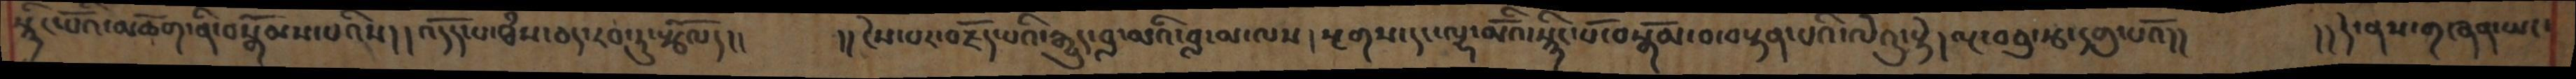སྙིང་པོའ་མཆོག་ནི་བསྒོམས་པའིས།།འདོད་པ་ཐཾས་ཅད་རབ་ཏུ་སྩོལ།།    །།ངེས་པར་བརྗོད་པའི་རྒྱུད་བླ་མའི་བླ་མ་ལས། སྔགས་དང་ལྷ་མོའི་སྙིང་པོ་བསྒོམ་བ་བསྟན་པའི་ལེའུ་སྟེ། ལྔ་བཅུ་རྩ་དགུ་པའོ།།    །།དེ་ནས་གཞན་ཡང་
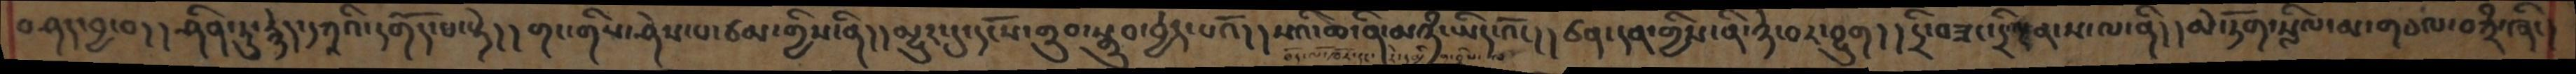བཤད་བྱ་བ།།ཤིན་ཏུ་རྙེད་དཀཱའི་དགོད་པ་སྟེ།།གང་གིས་ཤེས་པ་ཙམ་གྱིས་ནི།།མྱུར་དུ་དངོས་གྲུབ་སྒྲུབ་བྱེད་པའོ།།སའི་ཆ་ནི་མཉཾ་ཡིད་འོང།།ཙན་དན་གྱིས་ནི་ཉེ་བར་བྱུག།།དྲི་བཟང་དྲི་ངན་ས་ལ་ནི།།མེ་ཏོག་སྲིལ་མ་གཅལ་བཀྲཾ་ཞིང་
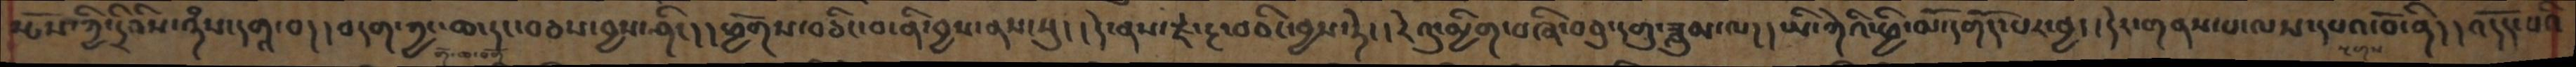སྤོས་ཀྱི་དྲིའིས་ཉཾས་དགའ་བ།།བདག་ཀྱང་ཆད་དང་བཅས་བྱས་ཤིང།།ཕྱོགས་བཅིང་བ་ནི་བྱས་ནས་སུ།།དེ་ནས་རྫ་རྔ་བཅིང་བྱས་ཏེ།།རེའུ་མྱིག་བཞི་བཅུ་དགུ་ཟླུམ་ལ།།ཡི་གེའི་ཕྱི་མོ་དགོད་པར་བྱ།།དེར་གནས་པ་ལས་དཔའ་བོ་ནི།།འདོད་པའི
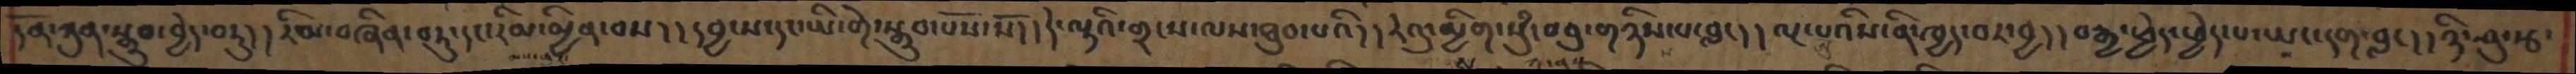དོན་ཀུན་སྒྲུབ་བྱེད་བཏུ།།རིམ་བཞིན་བཏུ་དང་རིམ་མྱིན་བས།།དབྱངས་དང་ཡི་གེ་སྒྲུབ་པོས་སོ།།དེ་ལྟའི་གྲངས་ལས་ཐུབ་པའི།།རེའུ་མྱིག་སུཾ་བཅུ་གཉིས་པ་བླང།།ལྔ་པའིས་ནི་ཁྱད་བར་བྱ།།བརྒྱ་ཕྱེད་ཕྱེད་པ་ཡང་དག་བླང།།ཉི་ཤུ་རྩ་
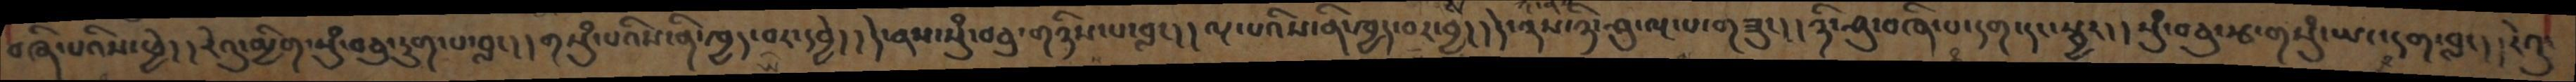བཞི་པའིས་ཕྱེ། །རེའུ་མྱིག་སུཾ་བཅུ་དྲུག་པ་བླང།།གསུཾ་པའིས་ནི་ཁྱད་བར་དབྱེ།།དེ་ནས་སུཾ་བཅུ་གཉིས་པ་བླང།།ལྔ་པའིས་ནི་ཁྱད་པར་བྱ།།དེ་ནས་ཉི་ཤུ་ལྔ་པ་གཟུང།།ཉི་ཤུ་བཞི་པ་དག་དང་སྦྱར།།སུཾ་བཅུ་རྩ་གསུཾ་ཡང་དག་བླང།།རེའུ་
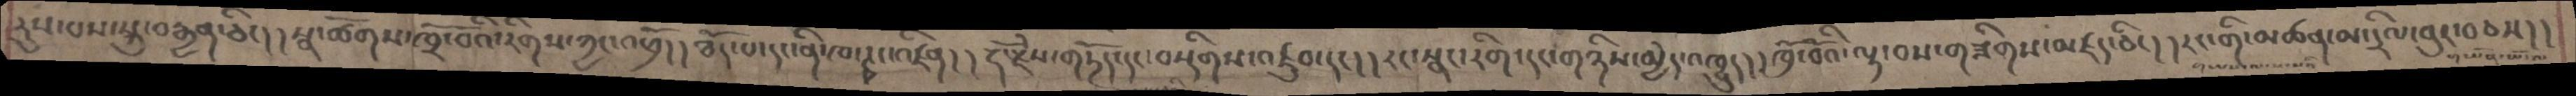རུས་པས་སྐུ་བརྒྱན་ཅིང།།སྣ་ཚོགས་ཁྲོ་བོའི་རིགས་ཀྱང་འཕྲོ།།ཐོད་པ་དང་ནི་ཁ་ཊྭང་འཛིན།།རྡོ་རྗེས་གཏོད་དང་བསྡིགས་འཛུབ་དང།།རང་སྣང་རིག་དང་གཉིས་མྱེད་འཁྱུད།།ཁྲོ་བོའི་ལྟ་བས་གཟིགས་མཛད་ཅིང།།རང་གི་མཚན་མ་དྲིལ་བུར་བཅས།།
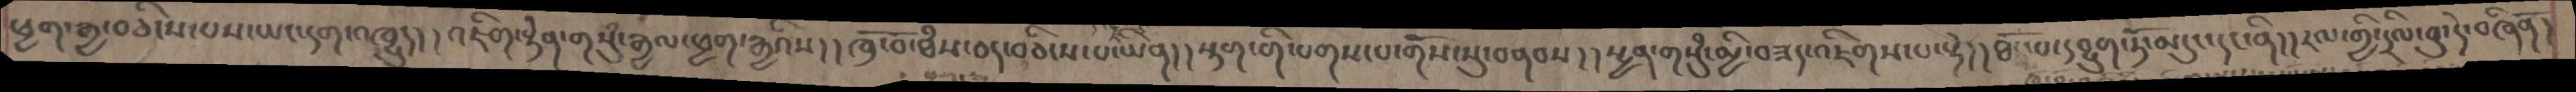ཕྱག་རྒྱ་བཅིངས་པས་ཡང་དག་འཁྱུད།།འཇིག་རྟེན་གསུཾ་རྒྱལ་ཕྱག་རྒྱའིས།།ཁྲོ་བོ་ཐཾས་ཅད་བཅིངས་པ་ཡིན།།སྟག་གི་པགས་པ་གོས་སུ་བནབས།།སྤྱན་གསུཾ་མྱི་བཟད་འཇིགས་པ་སྟེ།།ཐོད་པ་དབྱུག་ཏོ་མདུང་དང་ནི།།རལ་གྱི་དྲིལ་བུ་དེ་བཞིནོ།
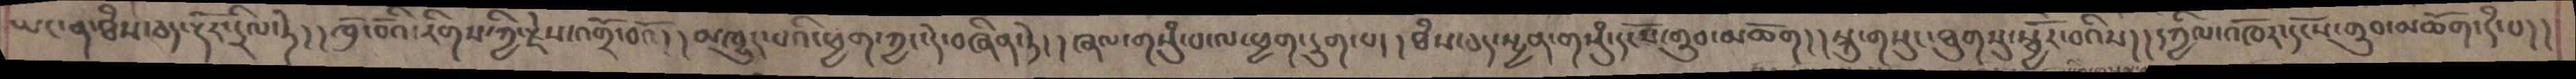ཡང་ན་ཐཾས་ཅད་རྡོར་དྲིལ་ཏེ།།ཁྲོ་བོའི་རིགས་ཀྱི་རྗེས་འགྲོ་བའོ།།མཁྱུད་པའི་ཕྱག་ཀྱང་དེ་བཞིན་ཏེ།།ཞལ་གསུཾ་པ་ལ་ཕྱག་དྲུག་པ།།ཐཾས་ཅད་སྤྱན་གསུཾ་དངོས་གྲུབ་མཆོག།།སྐུ་གསུང་ཐུགསུ་སྦྱོར་བའིས།།དཀྱིལ་འཁོར་དངོས་གྲུབ་མཆོག་དཾ་པ།།
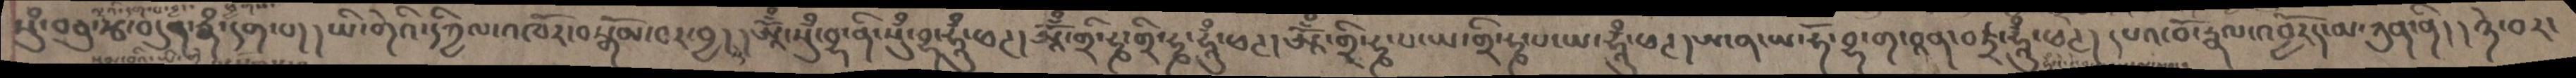སུཾ་བཅུ་རྩ་བདུན་རྣཾ་དག་པ།།ཡི་གེའི་དཀྱིལ་འཁོར་བསྒོམ་པར་བྱ།།ཨཱོྃ་སུཾ་བྷ་ནི་སུཾ་བྷ་ཧཱུྃ་ཕཊ། ཨཱོྃ་གྲི་ཧྞ་གྲི་ཧྞ་ཧཱུྃ་ཕཊ།ཨཱོྃ་གྲི་ཧྞ་པ་ཡ་གྲི་ཧྞ་པ་ཡ་ཧཱུྃ་ཕཊ།ཨ་ན་ཡ་ཧོ་བྷ་ག་བཱན་བཛྲ་ཧཱུྃ་ཕཊ། དཔའ་བོ་རྣལ་འབྱོརད་མ་ཀུན་ནི། །ཉེ་བར་
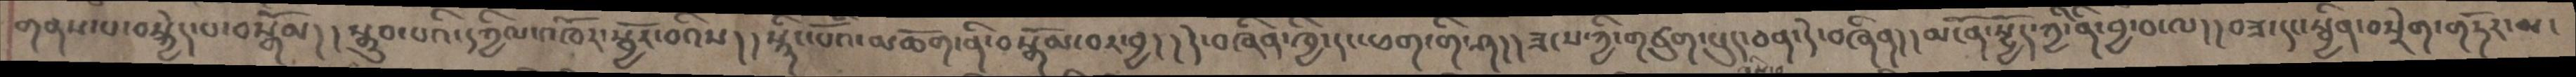གནས་པ་བསྐྱེད་པ་བསྒོམ།།སྒྲུབ་པའི་དཀྱིལ་འཁོར་སྦྱོར་བའིས།།སྙིང་པོའི་མཆོག་ནི་བསྒོམ་བར་བྱ།།དེ་བཞིན་ཁྱི་དང་ཕག་གི་ཤ།།ཟངས་ཀྱི་གཙུག་ཕུད་ཅན་དེ་བཞིན།།མངོན་སྤྱོད་ཀྱི་ནི་བྱ་བ་ལ།།བཟ་དང་སྦྱིན་བསྲེག་གཏོར་མ་
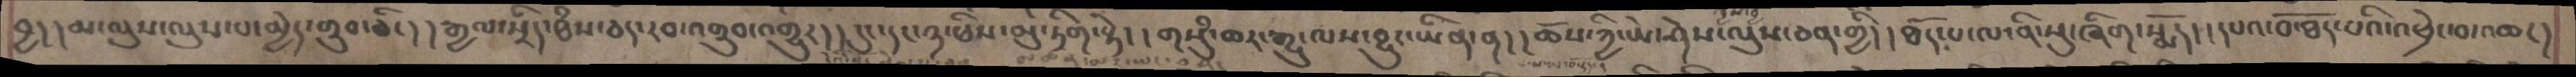བྱ།།མ་ལུས་ལུས་པ་མྱེད་གྲུབ་ཅིང།། རྒྱལ་སྲིད་ཐཾས་ཅད་རབ་འགྲུབ་འགྱུར།།དུང་དང་ཉ་ཕིས་མུ་ཏིག་སྟེ།། གསུཾ་ཆར་རྒྱུ་ལས་བྱུང་ཡིན་ན།།ཆོས་ཀྱི་ཡེ་ཤེས་ལུས་ཅན་གྱི།།ཐོད་པ་ལ་ནི་སུ་ཞིག་སྨོད།།དཔའ་བོ་ཐོད་པའི་འཕྲེང་བ་འཆང།
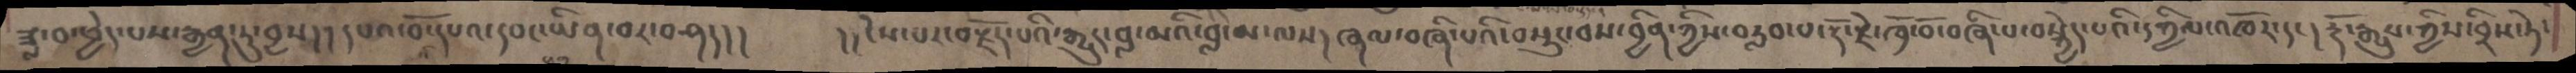ཟླ་བ་ཕྱེད་པས་རྒྱན་ཏུ་བྱས།། དཔའ་བོ་དཔའ་དབང་ཡིན་བར་བཤད།།    །།ངེས་པར་བརྗོད་པའི་རྒྱུད་བླ་མའི་བླ་མ་ལས། ཞལ་བཞི་པའི་བསྲུང་བས་བྱིན་ཀྱིས་བརླབ་པ་རྡོ་རྗེ་ཁྲོ་བོ་བཞི་པ་བསྐྱེད་པའི་དཀྱིལ་འཁོར་དང། རྡོ་རྒྱུས་ཀྱིས་བྲིས་ཏེ་
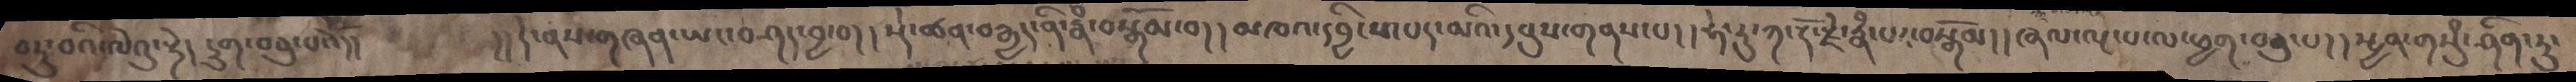བཏུ་བའི་ལེའུ་སྟེ། དྲུག་བཅུ་པའོ།།    །།དེ་ནས་གཞན་ཡང་བཤད་བྱ་བ། །སྡེ་ཚན་བརྒྱད་ནི་རྣཾ་བསྒོམ་བ། །མཁའ་དབྱིངས་པད་མའི་དབུས་གནས་པ། །ཧེ་རུ་ཀ་རྡོ་རྗེ་རྣཾ་པར་བསྒོམ། །ཞལ་ལྔ་པ་ལ་ཕྱག་བཅུ་པ། །སྤྱན་གསུཾ་ཤིན་དཏུ་
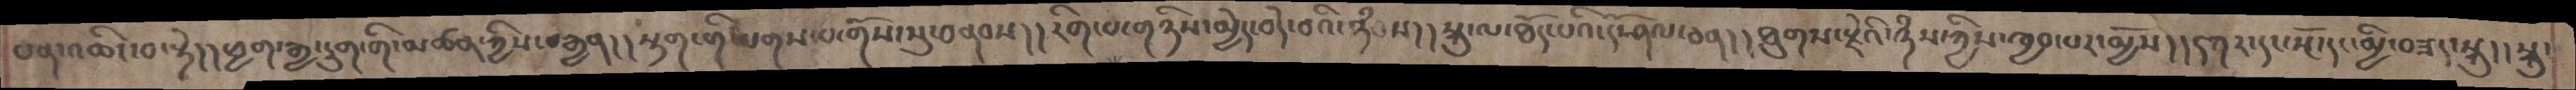པན་འཆི་བ་སྟེ།།ཕྱག་རྒྱ་དྲུག་གི་མཚན་ཀྱིས་བརྒྱན།།སྟག་གི་པགས་པ་གོས་སུ་བནབས།།རིག་པ་གཉིས་མྱེད་བདེ་བའི་ཉཾ ས།།སྐུ་ལ་ཐོད་པའི་དོ་ཤལ་ཅན། །ཐུགས་རྗེའི་ཉཾས་ཀྱིས་ཁྱབ་པར་མྱོས།།དཀར་དང་སྔོ་དང་མྱི་བཟད་སྐུ།།སྐུ་
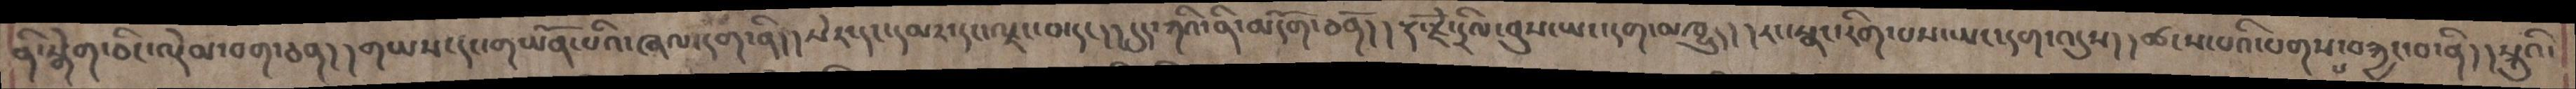ནི་སྒེག་ཅིང་ལྡེམ་བག་ཅན།།གཡས་དང་གཡོན་པའི་ཞལ་དག་ནི།།སེར་དང་དམར་དང་ལྗང་བ་དང།།དུད་ཀའི་ནི་མདོག་ཅནོ།།རྡོ་རྗེ་དྲིལ་བུས་ཡང་དག་མཁྱུད།།རང་སྣང་རིག་པས་ཡང་དག་འདུས།།ཚངས་པའི་པགས་པ་བརྐྱང་བ་ནི།།སྐུའི་
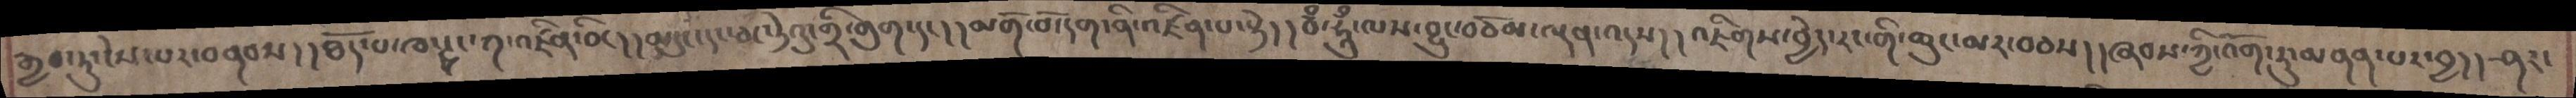རྒྱབ་ཏུ་ངེས་པར་བནབས།།ཐོད་པ་ཁ་ཊྭང་ཀ་འཛིན་ཅིང།།མདུང་དང་ཅང་ཏེའུ་གྲི་གུག་དང།།མགོ་བོ་དག་ནི་འཛིན་པ་སྟེ།།བྃ་ཧཱུྃ་ལས་བྱུང་བཅོམ་ལྡན་འདས།།འཇིགས་བྱེད་རང་གི་ཆུང་མར་བཅས།།ཞབས་ཀྱི་འོག་ཏུ་མནན་པར་བྱ། །ཤར་
